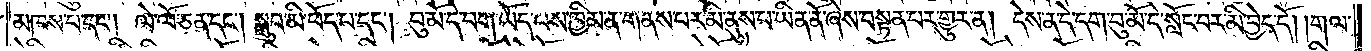མཁས་པ་དང༌། ལེ་ལོ་ཅན་དང༌། སྒྲུབ་མི་ཕོད་པ་དང༌། བུ་མོ་དེ་བག་ཡོད་པས་ཁྱིམ་ན་གནས་པར་མི་ནུས་པ་ཡིན་ནོ་ཞེས་བསྟན་པར་གྱུར་ན། དེས་ན་དེ་དག་བུ་མོ་དེ་སློང་བར་མི་བྱེད་དོ། །གལ་
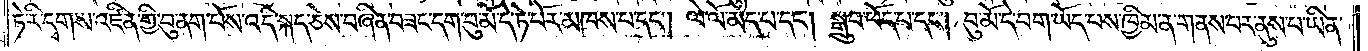ཏེ་རི་དྭགས་འཛིན་གྱི་བུ་ནག་པོས་འདི་སྐད་ཅེས་བཞིན་བཟང་དག་བུ་མོ་དེ་ཏེ་པོར་མཁས་པ་དང༌། ལེ་ལོ་མེད་པ་དང༌། སྒྲུབ་ཕོད་པ་དང༌། བུ་མོ་དེ་བག་ཡོད་པས་ཁྱིམ་ན་གནས་པར་ནུས་པ་ཡིན་
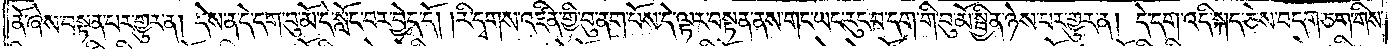ནོ་ཞེས་བསྟན་པར་གྱུར་ན། དེས་ན་དེ་དག་བུ་མོ་དེ་སློང་བར་བྱེད་དོ། །རི་དྭགས་འཛིན་གྱི་བུ་ནག་པོས་དེ་ལྟར་བསྟན་ནས་གང་ཡང་རུང་བ་དག་གི་བུ་མོ་སྦྱིན་ཉེས་པར་གྱུར་ན། དེ་དག་འདི་སྐད་ཅེས་བདག་ཅག་གིས་
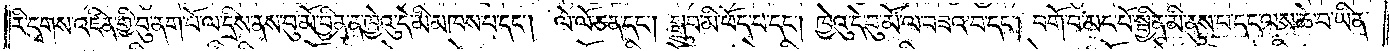རི་དྭགས་འཛིན་གྱི་བུ་ནག་པོ་ལ་དྲིས་ནས་བུ་མོ་བྱིན་ན་ཁྱེའུ་དེ་མི་མཁས་པ་དང༌། ལེ་ལོ་ཅན་དང༌། སྒྲུབ་མི་ཕོད་པ་དང༌། ཁྱེའུ་དེ་བུ་མོ་ལ་བཟའ་བ་དང༌། བགོ་བ་མང་པོ་སྦྱིན་མི་ནུས་པ་དང་ལས་ཆེ་བ་ཡིན་
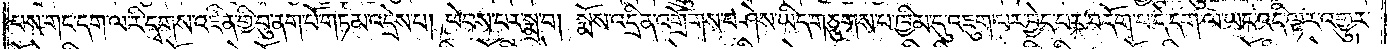པས་གང་དག་ལ་རི་དྭགས་འཛིན་གྱི་བུ་ནག་པོ་གཏམ་འདྲེས་པ། ཕེབས་པར་སྨྲ་བ། སྨོས་འདྲིན་འགྲོགས་བཤེས་ཡིད་གཅུགས་པ་ཁྱིམ་དུ་འཇུག་པར་བྱེད་པར་བདོག་པ་དེ་དག་ལ་ཡང་འདི་ལྟར་འགྱུར་
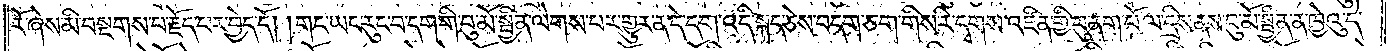རོ་ཞེས་མི་བསྔགས་པ་རྗོད་པར་བྱེད་དོ། །གང་ཡང་རུང་བ་དག་གི་བུ་མོ་སྦྱིན་ལེགས་པར་གྱུར་ན་དེ་དག་འདི་སྐད་ཅེས་བདག་ཅག་གིས་རི་དྭགས་འཛིན་གྱི་བུ་ནག་པོ་ལ་དྲིས་ནས་བུ་མོ་སྦྱིན་ན་ཁྱེའུ་དེ་
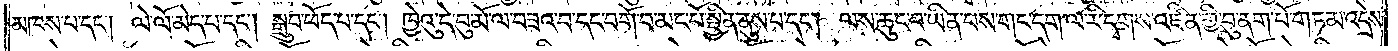མཁས་པ་དང༌། ལེ་ལོ་མེད་པ་དང༌། སྒྲུབ་ཕོད་པ་དང༌། ཁྱེའུ་དེ་བུ་མོ་ལ་བཟའ་བ་དང་བགོ་བ་མང་པོ་སྦྱིན་ནུས་པ་དང༌། ལས་ཆུང་བ་ཡིན་པས་གང་དག་ལ་རི་དྭགས་འཛིན་གྱི་བུ་ནག་པོ་གཏམ་འདྲེས་
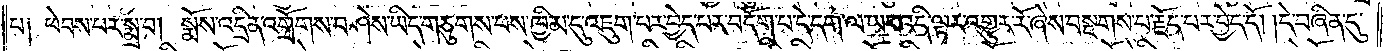པ༑ ཕེབས་པར་སྨྲ་བ། སྨོས་འདྲིན་འགྲོགས་བཤེས་ཡིད་གཅུགས་པས་ཁྱིམ་དུ་འཇུག་པར་བྱེད་པར་བདོག་པ་དེ་དག་ལ་ཡང་འདི་ལྟར་འགྱུར་རོ་ཞེས་བསྔགས་པ་རྗོད་པར་བྱེད་དོ། །དེ་བཞིན་དུ་
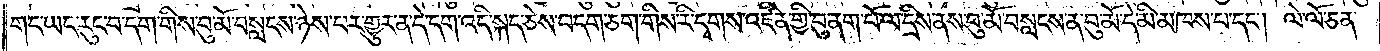གང་ཡང་རུང་བ་དག་གིས་བུ་མོ་བསླངས་ཉེས་པར་གྱུར་ན་དེ་དག་འདི་སྐད་ཅེས་བདག་ཅག་གིས་རི་དྭགས་འཛིན་གྱི་བུ་ནག་པོ་ལ་དྲིས་ནས་བུ་མོ་བསླངས་ན་བུ་མོ་དེ་མི་མཁས་པ་དང༌། ལེ་ལོ་ཅན་
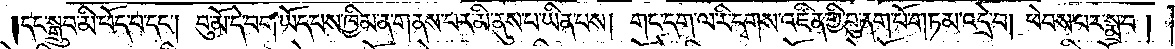དང་སྒྲུབ་མི་ཕོད་པ་དང༌། བུ་མོ་དེ་བག་ཡོད་པས་ཁྱིམ་ན་གནས་པར་མི་ནུས་པ་ཡིན་པས། གང་དག་ལ་རི་དྭགས་འཛིན་གྱི་བུ་ནག་པོ་གཏམ་འདྲེ་བ། ཕེབས་པར་སྨྲ་བ།
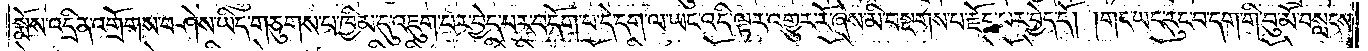སྨོས་འདྲིན་འགྲོགས་བཤེས་ཡིད་གཅུགས་པ་ཁྱིམ་དུ་འཇུག་པར་བྱེད་པར་བདོག་པ་དེ་དག་ལ་ཡང་འདི་ལྟར་འགྱུར་རོ་ཞེས་མི་བསྔགས་པ་རྗོད་པར་བྱེད་དོ། །གང་ཡང་རུང་བ་དག་གི་བུ་མོ་བསླངས་
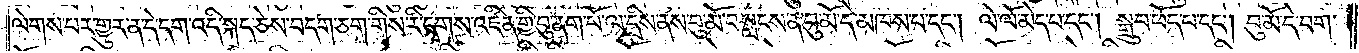ལེགས་པར་གྱུར་ན་དེ་དག་འདི་སྐད་ཅེས་བདག་ཅག་གིས་རི་དྭགས་འཛིན་གྱི་བུ་ནག་པོ་ལ་དྲིས་ནས་བུ་མོ་བསླངས་ན་བུ་མོ་དེ་མཁས་པ་དང༌། ལེ་ལོ་མེད་པ་དང༌། སྒྲུབ་ཕོད་པ་དང༌། བུ་མོ་དེ་བག་
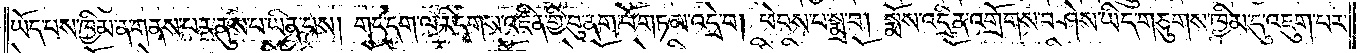ཡོད་པས་ཁྱིམ་ན་གནས་པར་ནུས་པ་ཡིན་པས། གང་དག་ལ་རི་དྭགས་འཛིན་གྱི་བུ་ནག་པོ་གཏམ་འདྲེ་བ། ཕེབས་པ་སྨྲ་བ། སྨོས་འདྲིན་འགྲོགས་བཤེས་ཡིད་གཅུགས་ཁྱིམ་དུ་འཇུག་པར་
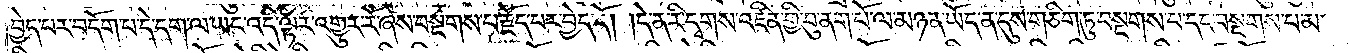བྱེད་པར་བདོག་པ་དེ་དག་ལ་ཡང་འདི་ལྟར་འགྱུར་རོ་ཞེས་བསྔགས་པ་རྗོད་པར་བྱེད་དོ། །དེ་ན་རི་དྭགས་འཛིན་གྱི་བུ་ནག་པོ་ལ་མཉན་ཡོད་ན་དུས་གཅིག་ཏུ་བསྔགས་པ་དང་བསྔགས་པ་མ་
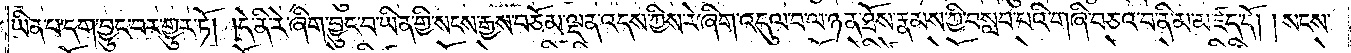ཡིན་པ་དག་བྱུང་བར་གྱུར་ཏོ། །དེ་ནི་རེ་ཞིག་བྱུང་བ་ཡིན་གྱི་སངས་རྒྱས་བཅོམ་ལྡན་འདས་ཀྱིས་རེ་ཞིག་འདུལ་བ་ལ་ཉན་ཐོས་རྣམས་ཀྱི་བསླབ་པའི་གཞི་བཅའ་བ་ནི་མ་མཛད་དོ། །སངས་
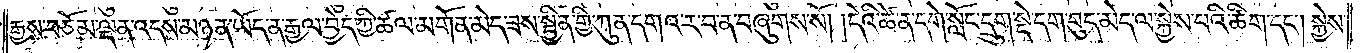རྒྱས་བཅོམ་ལྡན་འདས་མཉན་ཡོད་ན་རྒྱལ་བྱེད་ཀྱི་ཚལ་མགོན་མེད་ཟས་སྦྱིན་གྱི་ཀུན་དགའ་ར་བ་ན་བཞུགས་སོ། །དེའི་ཚེ་ན་དགེ་སློང་དྲུག་སྡེ་དག་བུད་མེད་ལ་སྐྱེས་པའི་ཚིག་དང༌། སྐྱེས་
